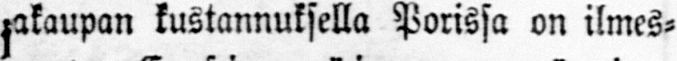jakaupan kustannuksella Porissa on ilmes-
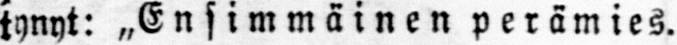tynyt: „Ensimmäinen perämies.
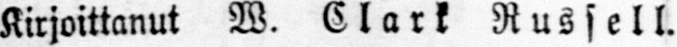Kirjoittanut W. Clark Russell.
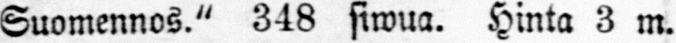Suomennos." 348 siwua. Hinta 3 m.
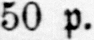50 p.
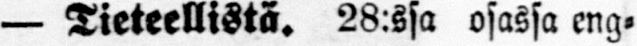— Tieteellistä. 28:ssa osassa eng-
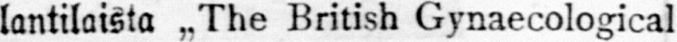lantilaista ˶The British Gynaecological
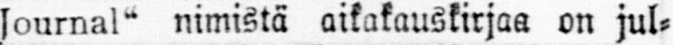Journal" nimistä aikakauskirjaa on jul-
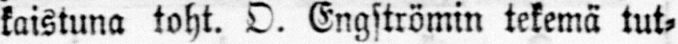kaistuna toht. O. Engströmin tekemä tut-
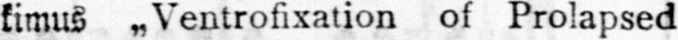kimus ˶Ventrofixation of Prolapsed
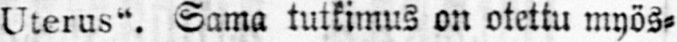Uterus". Sama tutkimus on otettu myös-
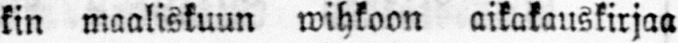kin maaliskuun wihkoon aikakauskirjaa
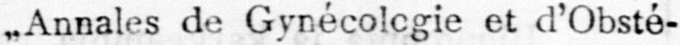˶Annales de Gynécolcgie et d'Obsté-
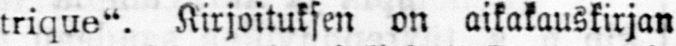trique". Kirjoituksen on aikakauskirjan
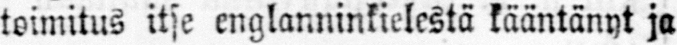toimitus itse englanninkielestä kääntänyt ja
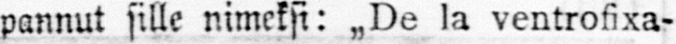pannut sille nimeksi: ˶De la ventrofixa-
